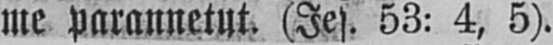me parannetut. (Jes. 53: 4, 5).
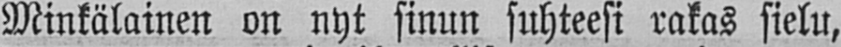Minkälainen on nyt sinun suhteesi rakas sielu,
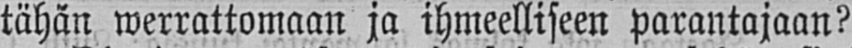tähän werrattomaan ja ihmeelliseen parantajaan?
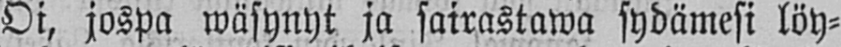Oi, jospa wäsynyt ja sairastawa sydämesi löy-
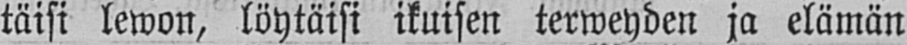täisi lewon, löytäisi ikuisen terweyden ja elämän
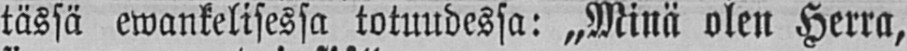tässä ewankelisessa totuudessa: „Minä olen Herra,
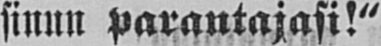sinun parantajasi!"
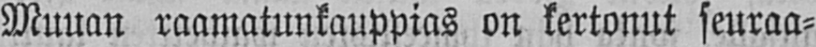Muuan raamatunkauppias on kertonut seuraa-
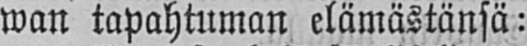wan tapahtuman elämästänsä:
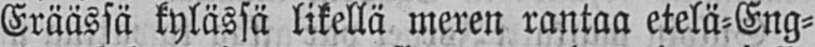Eräässä kylässä likellä meren rantaa etelä-Eng-
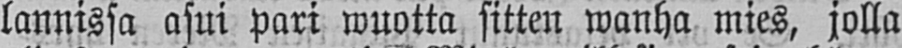lannissa asui pari wuotta sitten wanha mies, jolla
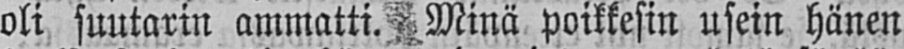oli suutarin ammatti. Minä poikkesin usein hänen
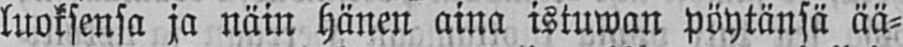luoksensa ja näin hänen aina istuwan pöytänsä ää-
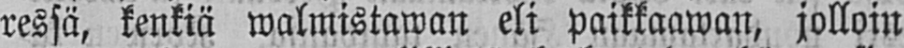ressä, kenkiä walmistawan eli paikkaawan, jolloin
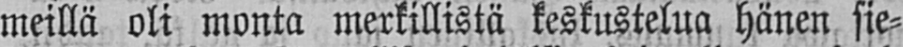meillä oli monta merkillistä keskustelua hänen sie-
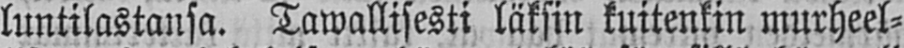luntilastansa. Tawallisesti läksin kuitenkin murheel-
